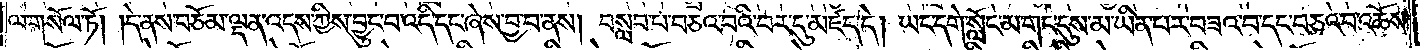ལ་གསོལ་ཏོ། །དེ་ནས་བཅོམ་ལྡན་འདས་ཀྱིས་བྱུང་བ་འདི་དང་ཞེས་བྱ་བ་ནས། བསླབ་པ་བཅའ་བའི་བར་དུ་མཛད་དེ། ཡང་དགེ་སློང་མ་གང་དུས་མ་ཡིན་པར་བཟའ་བ་དང་བཅའ་བ་འཆོས་
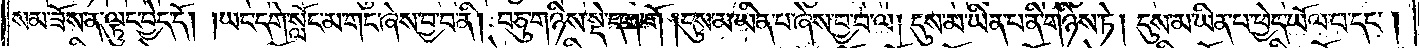སམ་ཟོས་ན་ལྟུང་བྱེད་དོ། །ཡང་དགེ་སློང་མ་གང་ཞེས་བྱ་བ་ནི། བཅུ་གཉིས་སྡེ་དག་གོ། །དུས་མ་ཡིན་པ་ཞེས་བྱ་བ་ལ། དུས་མ་ཡིན་པ་ནི་གཉིས་ཏེ། དུས་མ་ཡིན་པ་ཕྱེད་ཡོལ་བ་དང༌།
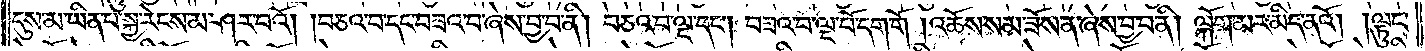དུས་མ་ཡིན་པ་སྐྱ་རེངས་མ་ཤར་བའོ། །བཅའ་བ་དང་བཟའ་བ་ཞེས་བྱ་བ་ནི། བཅའ་བ་ལྔ་དང༌། བཟའ་བ་ལྔ་པོ་དག་གོ། འཆོས་སམ་ཟོས་ན་ཞེས་བྱ་བ་ནི། ལྐོག་མར་མིད་ནའོ། །ལྟུང་
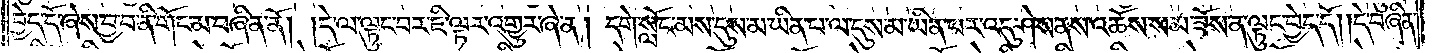བྱེད་དོ་ཞེས་བྱ་བ་ནི་གོང་མ་བཞིན་ནོ། །དེ་ལ་ལྟུང་བར་ཇི་ལྟར་འགྱུར་ཞེ་ན། དགེ་སློང་མས་དུས་མ་ཡིན་པ་ལ་དུས་མ་ཡིན་པར་འདུ་ཤེས་ནས་འཆོས་སམ་ཟོས་ན་ལྟུང་བྱེད་དོ། །དེ་བཞིན་
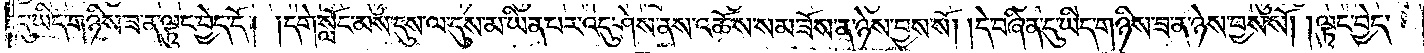དུ་ཡིད་གཉིས་ཟ་ན་ལྟུང་བྱེད་དོ། །དགེ་སློང་མས་དུས་ལ་དུས་མ་ཡིན་པར་འདུ་ཤེས་ནས་འཆོས་སམ་ཟོས་ན་ཉེས་བྱས་སོ། །དེ་བཞིན་དུ་ཡིད་གཉིས་ཟ་ན་ཉེས་བྱས་སོ། །ལྟུང་བྱེད་
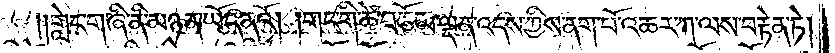གླེང་གཞི་ནི་མཉན་ཡོད་ནའོ། །གང་གི་ཚེ་བཅོམ་ལྡན་འདས་ཀྱིས་ནག་པོ་འཆར་ཀ་ལས་བརྟེན་ཏེ།
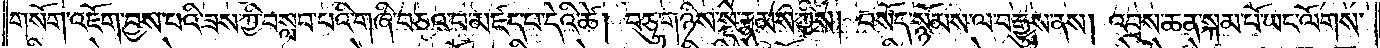གསོག་འཇོག་བྱས་པའི་ཟས་ཀྱི་བསླབ་པའི་གཞི་བཅའ་བ་མཛད་པ་དེའི་ཚེ། བཅུ་གཉིས་སྡེ་རྣམས་ཀྱིས། བསོད་སྙོམས་ལ་བརྒྱུས་ནས། འབྲས་ཆན་སྐམ་པོ་ཡང་ལོགས་
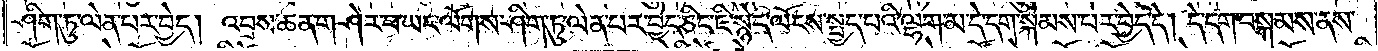ཤིག་ཏུ་ལེན་པར་བྱེད། འབྲས་ཆན་གཤེར་བ་ཡང་ལོགས་ཤིག་ཏུ་ལེན་པར་བྱེད་ཅིང་ཇི་སྙེད་ལོངས་སྤྱད་པའི་ལྷག་མ་དེ་དག་སྐེམས་པར་བྱེད་དེ། དེ་དག་བསྐམས་ནས་
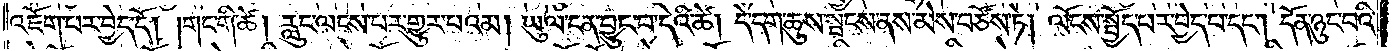འཇོག་པར་བྱེད་དོ། །གང་གི་ཚེ། རླུང་ལངས་པར་གྱུར་པའམ། ཡུལ་ངན་བྱུང་བ་དེའི་ཚེ། དེ་དག་ཆུས་སྤངས་ནས་མེས་བཙོས་ཏེ། ལོངས་སྤྱོད་པར་བྱེད་པ་དང༌། དོན་ཉུང་བའི་
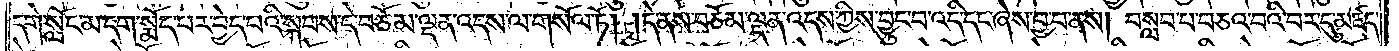དགེ་སློང་མ་དག་སྨོད་པར་བྱེད་པའི་སྐབས་དེ་བཅོམ་ལྡན་འདས་ལ་གསོལ་ཏོ། །དེ་ནས་བཅོམ་ལྡན་འདས་ཀྱིས་བྱུང་བ་འདི་དང་ཞེས་བྱ་བ་ནས། བསླབ་པ་བཅའ་བའི་བར་དུ་མཛད་
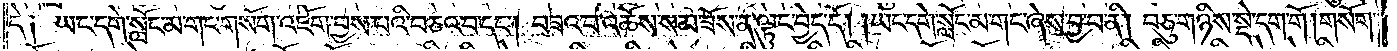དེ༑ ཡང་དགེ་སློང་མ་གང་གསོག་འཇོག་བྱས་པའི་བཅའ་བ་དང༌། བཟའ་བ་འཆོས་སམ་ཟོས་ན་ལྟུང་བྱེད་དོ། །ཡང་དགེ་སློང་མ་གང་ཞེས་བྱ་བ་ནི། བཅུ་གཉིས་སྡེ་དག་གོ །གསོག་
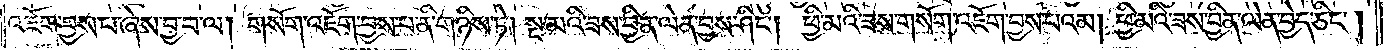འཇོག་བྱས་པ་ཞེས་བྱ་བ་ལ། གསོག་འཇོག་བྱས་པ་ནི་གཉིས་ཏེ། སྔ་མའི་ཟས་བྱིན་ལེན་བྱས་ཤིང༌། ཕྱི་མའི་ཟས་གསོག་འཇོག་བྱས་པའམ། ཕྱི་མའི་ཟས་བྱིན་ལེན་བྱེད་ཅིང༌།
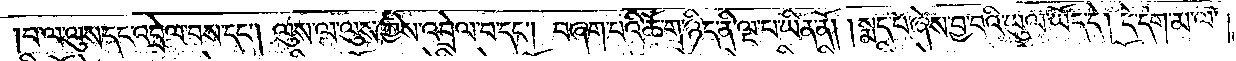བ་ལ་ལུས་དང་འབྲེལ་བས་དང༌། ལུས་ལ་ལུས་ཀྱིས་འབྲེལ་བ་དང༌། བཞག་པའི་ཆོ་ག་ཉིད་ནི་ལྔ་པ་ཡིན་ནོ། །སྨད་པ་ཞེས་བྱ་བའི་ཡུལ་ཡོད་དེ། དེ་དག་མ་ལ་
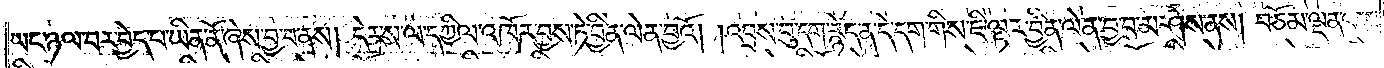ཡང་ཉལ་བར་བྱེད་པ་ཡིན་ནོ་ཞེས་བྱ་བ་ནས། དེར་ས་ལ་དཀྱིལ་འཁོར་བྱས་ཏེ་བྱིན་ལེན་བྱའོ། །འབྲས་བུ་དག་རྙེད་ན་དེ་དག་གིས་ཇི་ལྟར་བྱིན་ལེན་བྱ་བ་མ་ཤེས་ནས། བཅོམ་ལྡན་འདས་
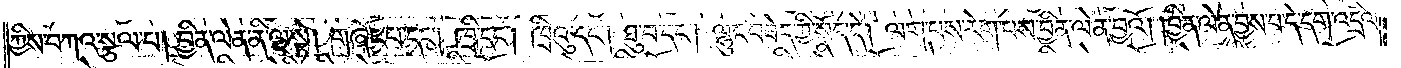ཀྱིས་བཀའ་སྩལ་པ། བྱིན་ལེན་ནི་ལྔ་སྟེ། གཞོང་པ་དང༌། ཁྲི་དང༌། ཁྲིའུ་དང༌། ཐུ་བ་དང༌། ལྷུང་བཟེད་ཀྱི་སྣོད་དེ། ལག་པས་རེག་པས་བྱིན་ལེན་བྱའོ། །བྱིན་ལེན་བྱས་པ་དེ་དག་འདྲིལ་
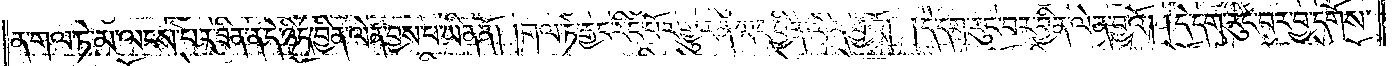ན་གལ་ཏེ་མ་ལངས་པར་ཟིན་ན་དེ་ཉིད་བྱིན་ལེན་བྱས་པ་ཡིན་ནོ། །གལ་ཏེ་རྒྱང་རིང་པོར་གྱུར་ན་ཡང་བྱིན་ལེན་བྱའོ། །དེ་དག་རུང་བར་བྱིན་ལེན་བྱའོ། །དེ་དག་རུང་བར་བྱ་དགོས་
